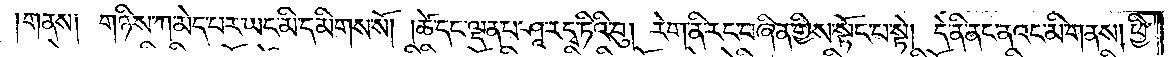གནས། གཉིས་ཀ་མེད་པར་ཡང་མི་དམིགས་སོ། །ཚེ་དང་ལྡན་པ་ཤཱ་ར་དྭ་ཏིའི་བུ། རེག་ནི་རང་བཞིན་གྱིས་སྟོང་པ་སྟེ། དེ་ནི་ནང་ནའང་མི་གནས། ཕྱི་
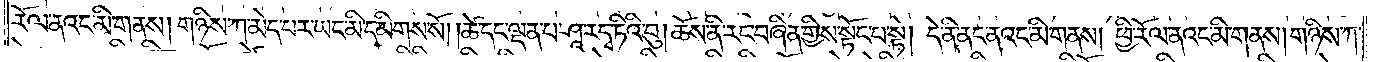རོལ་ནའང་མི་གནས། གཉིས་ཀ་མེད་པར་ཡང་མི་དམིགས་སོ། །ཚེ་དང་ལྡན་པ་ཤཱ་ར་དྭ་ཏིའི་བུ། ཆོས་ནི་རང་བཞིན་གྱིས་སྟོང་པ་སྟེ། དེ་ནི་ནང་ནའང་མི་གནས། ཕྱི་རོལ་ནའང་མི་གནས། གཉིས་ཀ་
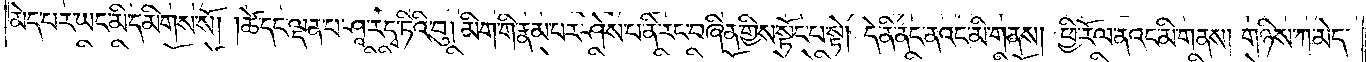མེད་པར་ཡང་མི་དམིགས་སོ། །ཚེ་དང་ལྡན་པ་ཤཱ་ར་དྭ་ཏིའི་བུ། མིག་གི་རྣམ་པར་ཤེས་པ་ནི་རང་བཞིན་གྱིས་སྟོང་པ་སྟེ། དེ་ནི་ནང་ནའང་མི་གནས། ཕྱི་རོལ་ནའང་མི་གནས། གཉིས་ཀ་
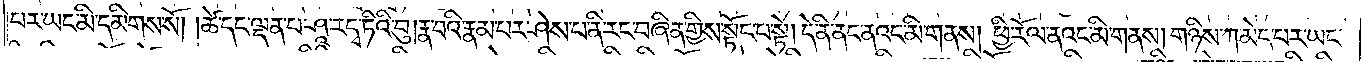མེད་པར་ཡང་མི་དམིགས་སོ། །ཚེ་དང་ལྡན་པ་ཤཱ་ར་དྭ་ཏིའི་བུ། རྣ་བའི་རྣམ་པར་ཤེས་པ་ནི་རང་བཞིན་གྱིས་སྟོང་པ་སྟེ། དེ་ནི་ནང་ནའང་མི་གནས། ཕྱི་རོལ་ནའང་མི་གནས། གཉིས་ཀ་མེད་པར་ཡང་
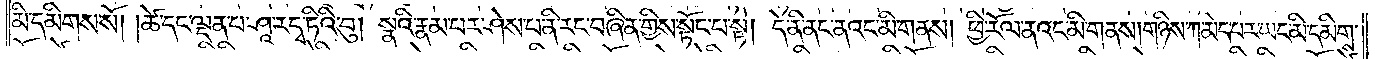མི་དམིགས་སོ། །ཚེ་དང་ལྡན་པ་ཤཱ་ར་དྭ་ཏིའི་བུ། སྣའི་རྣམ་པར་ཤེས་པ་ནི་རང་བཞིན་གྱིས་སྟོང་པ་སྟེ། དེ་ནི་ནང་ནའང་མི་གནས། ཕྱི་རོལ་ནའང་མི་གནས། གཉིས་ཀ་མེད་པར་ཡང་མི་དམིགས་
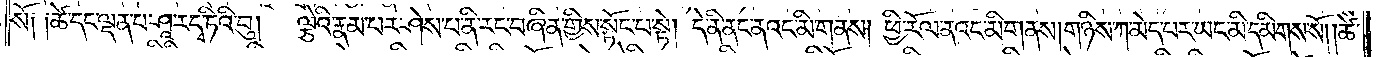སོ༏ ༏ཚེ་དང་ལྡན་པ་ཤཱ་ར་དྭ་ཏིའི་བུ། ལྕེའི་རྣམ་པར་ཤེས་པ་ནི་རང་བཞིན་གྱིས་སྟོང་པ་སྟེ། དེ་ནི་ནང་ནའང་མི་གནས། ཕྱི་རོལ་ནའང་མི་གནས། གཉིས་ཀ་མེད་པར་ཡང་མི་དམིགས་སོ། །ཚེ་
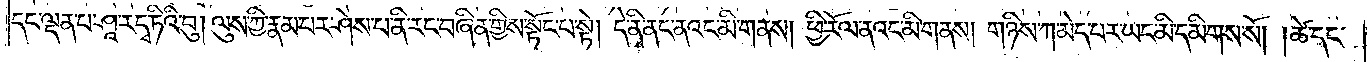དང་ལྡན་པ་ཤཱ་ར་དྭ་ཏིའི་བུ། ལུས་ཀྱི་རྣམ་པར་ཤེས་པ་ནི་རང་བཞིན་གྱིས་སྟོང་པ་སྟེ། དེ་ནི་ནང་ནའང་མི་གནས། ཕྱི་རོལ་ནའང་མི་གནས། གཉིས་ཀ་མེད་པར་ཡང་མི་དམིགས་སོ། །ཚེ་དང་
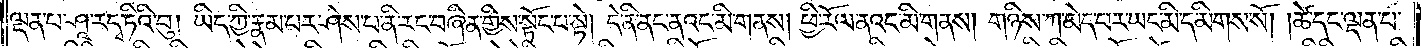ལྡན་པ་ཤཱ་ར་དྭ་ཏིའི་བུ། ཡིད་ཀྱི་རྣམ་པར་ཤེས་པ་ནི་རང་བཞིན་གྱིས་སྟོང་པ་སྟེ། དེ་ནི་ནང་ནའང་མི་གནས། ཕྱི་རོལ་ནའང་མི་གནས། གཉིས་ཀ་མེད་པར་ཡང་མི་དམིགས་སོ། །ཚེ་དང་ལྡན་པ་
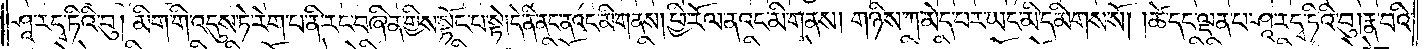ཤཱ་ར་དྭ་ཏིའི་བུ། མིག་གི་འདུས་ཏེ་རེག་པ་ནི་རང་བཞིན་གྱིས་སྟོང་པ་སྟེ། དེ་ནི་ནང་ནའང་མི་གནས། ཕྱི་རོལ་ནའང་མི་གནས། གཉིས་ཀ་མེད་པར་ཡང་མི་དམིགས་སོ། །ཚེ་དང་ལྡན་པ་ཤཱ་ར་དྭ་ཏིའི་བུ། རྣ་བའི་
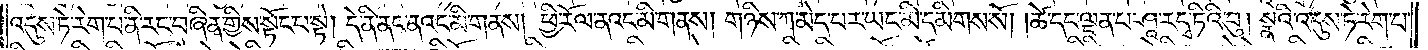འདུས་ཏེ་རེག་པ་ནི་རང་བཞིན་གྱིས་སྟོང་པ་སྟེ། དེ་ནི་ནང་ནའང་མི་གནས། ཕྱི་རོལ་ནའང་མི་གནས། གཉིས་ཀ་མེད་པར་ཡང་མི་དམིགས་སོ། །ཚེ་དང་ལྡན་པ་ཤཱ་ར་དྭ་ཏིའི་བུ། སྣའི་འདུས་ཏེ་རེག་པ་
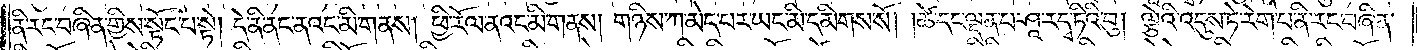ནི་རང་བཞིན་གྱིས་སྟོང་པ་སྟེ། དེ་ནི་ནང་ནའང་མི་གནས་ཕྱི་རོལ་ནའང་མི་གནས་གཉིས་ཀ་མེད་པར་ཡང་མི་དམིགས་སོ། །ཚེ་དང་ལྡན་པ་ཤཱ་ར་དྭ་ཏིའི་བུ། ལྕེའི་འདུས་ཏེ་རེག་པ་ནི་རང་བཞིན་
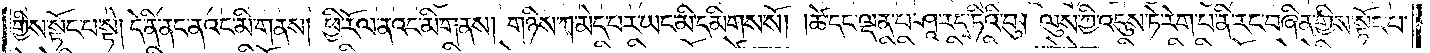གྱིས་སྟོང་པ་སྟེ། དེ་ནི་ནང་ནའང་མི་གནས། ཕྱི་རོལ་ནའང་མི་གནས། གཉིས་ཀ་མེད་པར་ཡང་མི་དམིགས་སོ། །ཚེ་དང་ལྡན་པ་ཤཱ་ར་དྭ་ཏིའི་བུ། ལུས་ཀྱི་འདུས་ཏེ་རེག་པ་ནི་རང་བཞིན་གྱིས་སྟོང་པ་
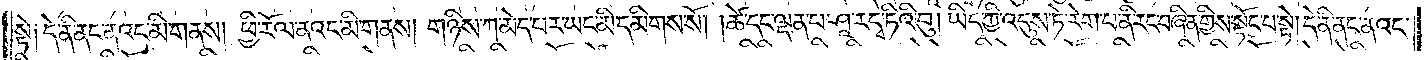སྟེ༏ དེ་ནི་ནང་ནའང་མི་གནས། ཕྱི་རོལ་ནའང་མི་གནས། གཉིས་ཀ་མེད་པར་ཡང་མི་དམིགས་སོ། །ཚེ་དང་ལྡན་པ་ཤཱ་ར་དྭ་ཏིའི་བུ། ཡིད་ཀྱི་འདུས་ཏེ་རེག་པ་ནི་རང་བཞིན་གྱིས་སྟོང་པ་སྟེ། དེ་ནི་ནང་ནའང་
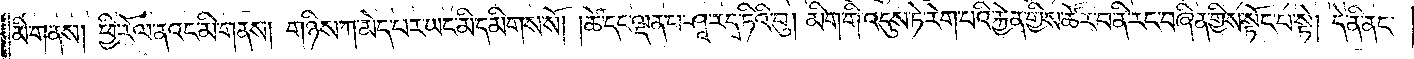མི་གནས། ཕྱི་རོལ་ནའང་མི་གནས། གཉིས་ཀ་མེད་པར་ཡང་མི་དམིགས་སོ། །ཚེ་དང་ལྡན་པ་ཤཱ་ར་དྭ་ཏིའི་བུ། མིག་གི་འདུས་ཏེ་རེག་པའི་རྐྱེན་གྱིས་ཚོར་བ་ནི་རང་བཞིན་གྱིས་སྟོང་པ་སྟེ། དེ་ནི་ནང་
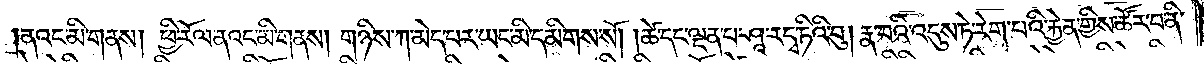ནའང་མི་གནས། ཕྱི་རོལ་ནའང་མི་གནས། གཉིས་ཀ་མེད་པར་ཡང་མི་དམིགས་སོ། །ཚེ་དང་ལྡན་པ་ཤཱ་ར་དྭ་ཏིའི་བུ། རྣ་པའི་འདུས་ཏེ་རེག་པའི་རྐྱེན་གྱིས་ཚོར་བ་ནི་
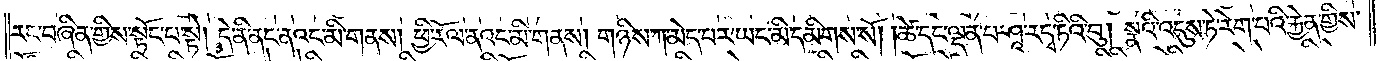རང་བཞིན་གྱིས་སྟོང་པ་སྟེ། དེ་ནི་ནང་ནའང་མི་གནས། ཕྱི་རོལ་ནའང་མི་གནས། གཉིས་ཀ་མེད་པར་ཡང་མི་དམིགས་སོ། །ཚེ་དང་ལྡན་པ་ཤཱ་ར་དྭ་ཏིའི་བུ། སྣའི་འདུས་ཏེ་རེག་པའི་རྐྱེན་གྱིས་
